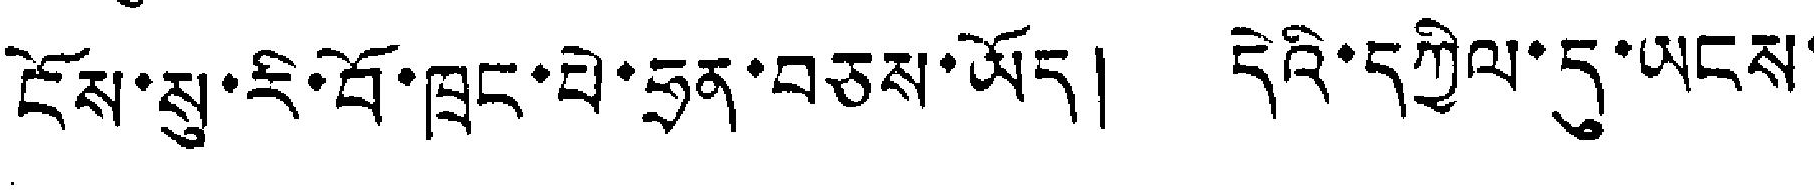ངོས་སུ་རི་བོ་ཁྲང་པེ་ཧྲན་བཅས་ཡོད། དེའི་དཀྱིལ་དུ་ཡངས་
